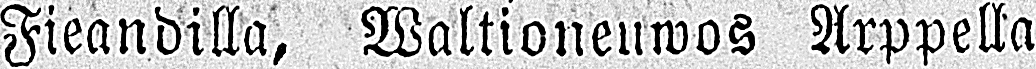Fieandilla, Waltioneuwos Arppella
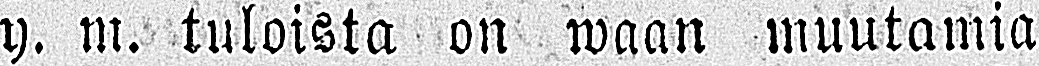y. m. tuloista on waan muutamia
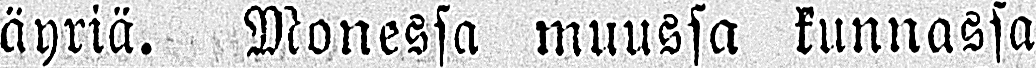äyriä. Monessa muussa kunnassa
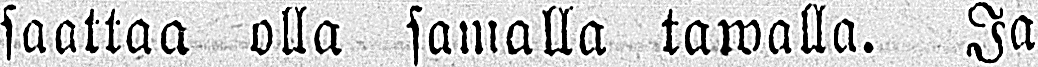saattaa olla samalla tawalla. Ja
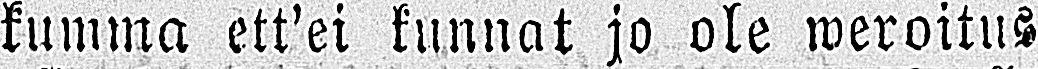kumma ett'ei kunnat jo ole weroitus
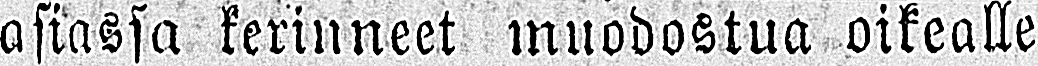asiassa kerinneet muodostua oikealle
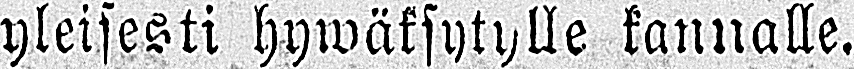yleisesti hywäksytylle kannalle.
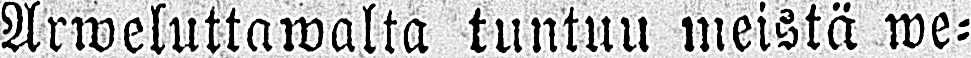Arweluttawalta tuntuu meistä we-
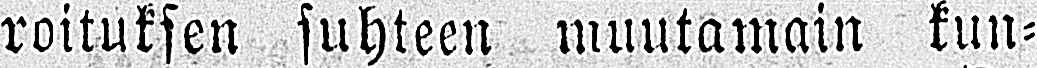roituksen suhteen muutamain kun-
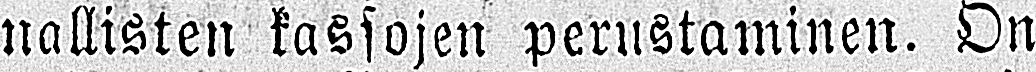nallisten kassojen perustaminen. On
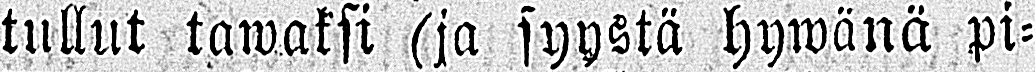tullut tawaksi (ja syystä hywänä pi-
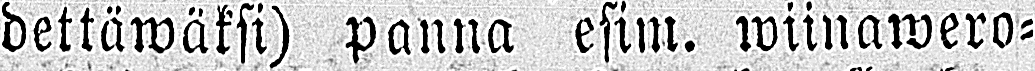dettäwäksi) panna esim. wiinawero-
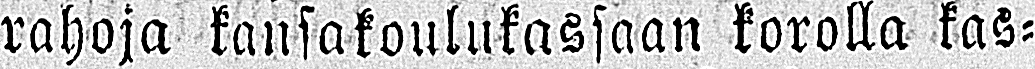rahoja kansakoulukassaan korolla kas-
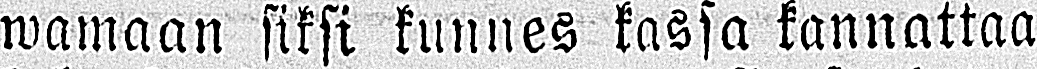wamaan siksi kunnes kassa kannattaa
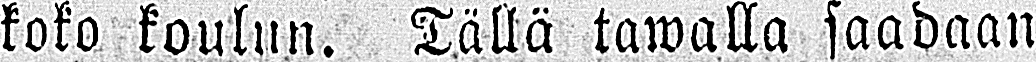koko koulun. Tällä tawalla saadaan
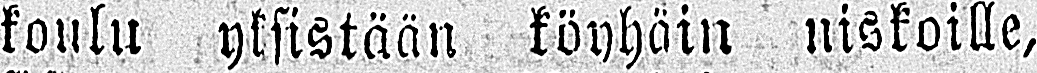koulu yksistään köyhäin niskoille,
